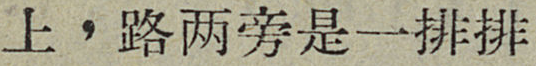上，路两旁是一排排
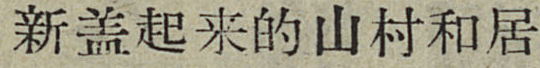新盖起来的山村和居
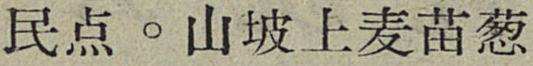民点。山坡上麦苗葱
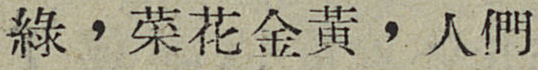綠，菜花金黃，人們
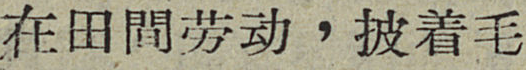在田間劳动，披着毛
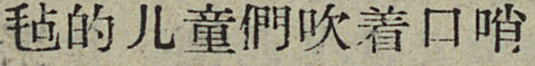毡的儿童們吹着口哨
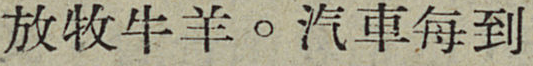放牧牛羊。汽車每到
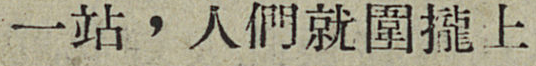一站，人們就圍攏上
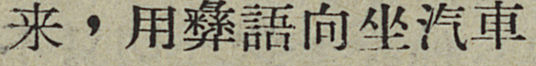来，用彝語向坐汽車
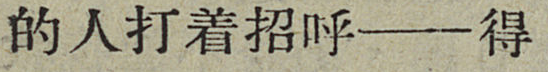的人打着招呼——得
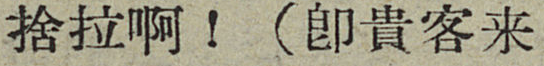捨拉啊！（卽貴客来
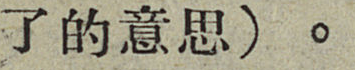了的意思）。
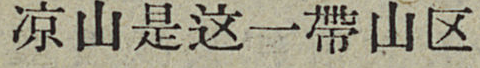凉山是这一帶山区
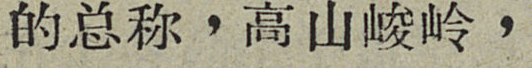的总称，高山峻岭，
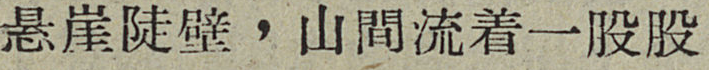悬崖陡壁，山間流着一股股
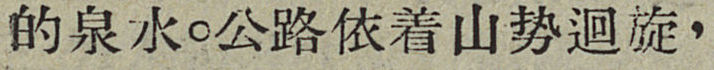的泉水。公路依着山势迴旋，
